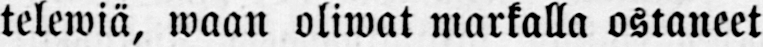telewiä, waan oliwat markalla ostaneet
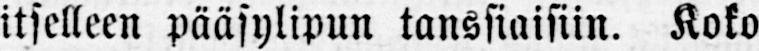itselleen pääsylipun tanssiaisiin. Koko
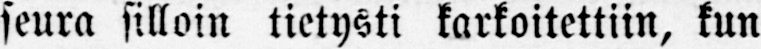seura silloin tietysti karkoitettiin, kun
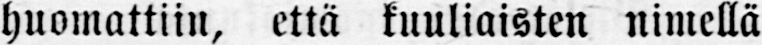huomattiin, että kuuliaisten nimellä
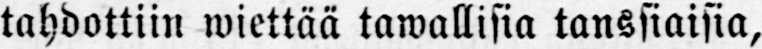tahdottiin wiettää tawallisia tanssiaisia,
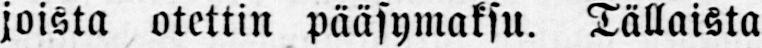joista otettin pääsymaksu. Tällaista
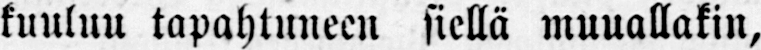kuuluu tapahtuneen siellä muuallakin,
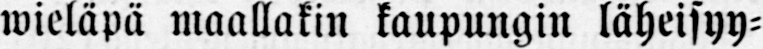wieläpä maallakin kaupungin läheisyy-
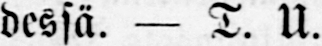dessä. — T. U.
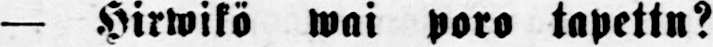— Hirwikö wai poro tapettu?
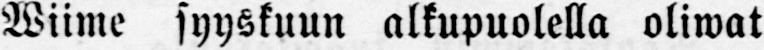Wiime syyskuun alkupuolella oliwat
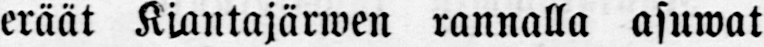eräät Kiantajärwen rannalla asuwat
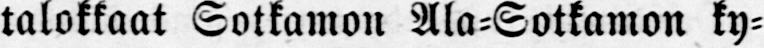talokkaat Sotkamon Ala-Sotkamon ky-
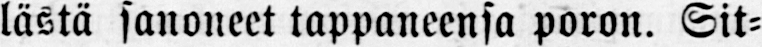lästä sanoneet tappaneensa poron. Sit-
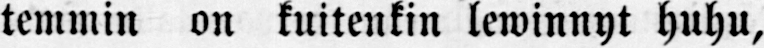temmin on kuitenkin lewinnyt huhu,
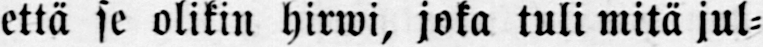että se olikin hirwi, joka tuli mitä jul-
